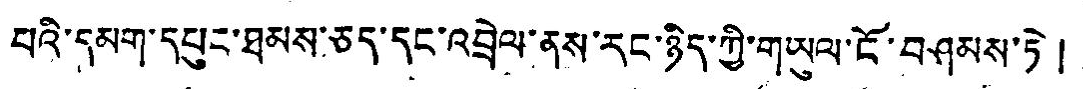པའི་དམག་དཔུང་ཐམས་ཅད་དང་འབྲེལ་ནས་རང་ཉིད་ཀྱི་གཡུལ་ངོ་བཤམས་ཏེ །
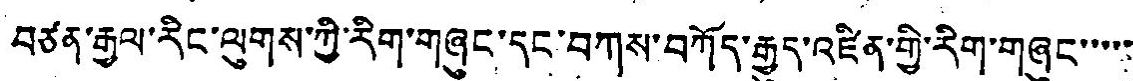བཙན་རྒྱལ་རིང་ལུགས་ཀྱི་རིག་གཞུང་དང་བཀས་བཀོད་རྒྱུད་འཛིན་གྱི་རིག་གཞུང་་་་་
